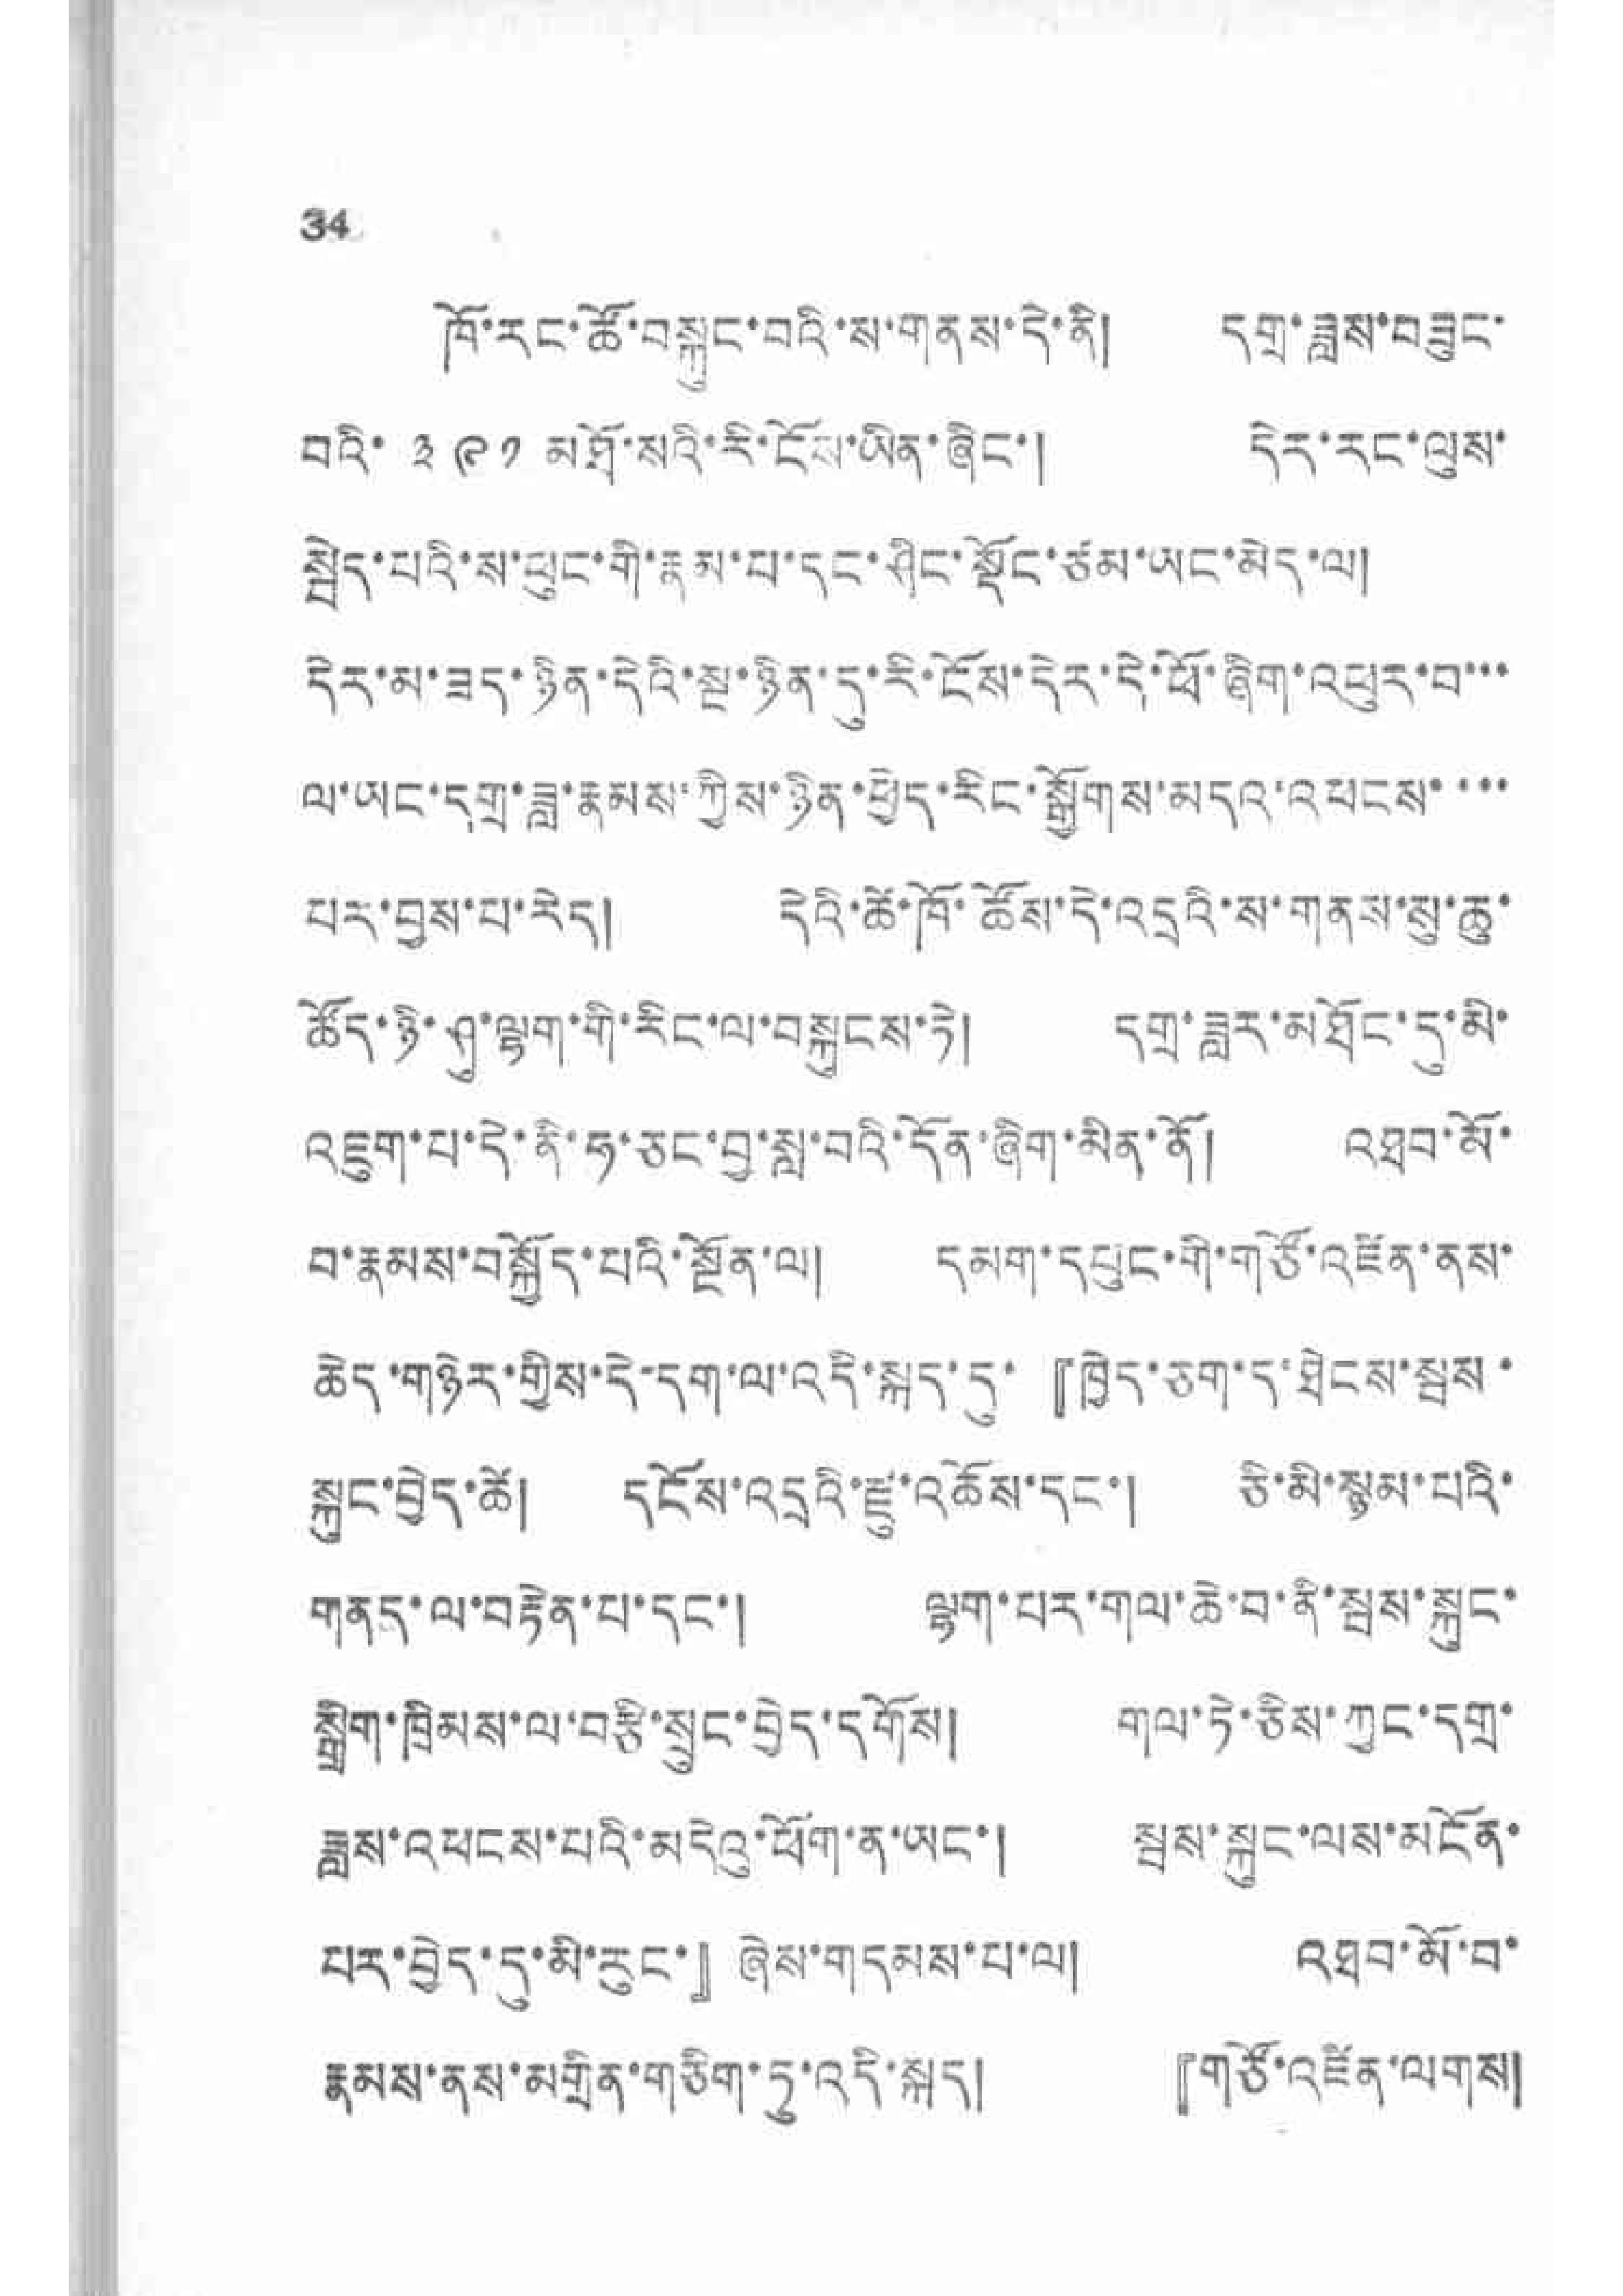34
ཁོ་རང་ཚོ་བསྐུང་བའི་ས་གནས་དེ་ནི། དགྲ་ཟླས་བཟུང་
བའི་ ༣༩༡ མཐོ་སའི་རི་ངོས་ཡིན་ཞིང་། དེར་རང་ལུས་
སྦེད་པའི་ས་ཕུང་གི་རྣམ་པ་དང་ཤིང་སྡོང་ཙམ་ཡང་མེད་ལ།
དེར་མ་ཟད་ཉིན་དེའི་སྔ་ཉིན་དུ་རི་ངོས་དེར་དེ་ཕོ་ཞིག་འཕུར་བ་་་
ལ་ཡང་དགྲ་ཟླ་རྣམས་ཀྱིས་ཉིན་ཕྱེད་རིང་སྒྱོགས་མདའ་འཕངས་་་་
པར་བྱས་པ་རེད། དེའི་ཚེ་ཁོ་ཚོས་དེ་འདྲའི་ས་གནས་སུ་ཆུ་
ཚོད་ཉི་ཤུ་ལྷག་གི་རིང་ལ་བསྐུངས་ཏེ། དགྲ་ཟླར་མཐོང་དུ་མི་
འཇུག་པ་དེ་ནི་ཧ་ཅང་བྱ་སླ་བའི་དོན་ཞིག་མིན་ནོ། འཐབ་མོ་
བ་རྣམས་བསྐྱོད་པའི་སྔོན་ལ། དམག་དཔུང་གོ་གཙོ་འཛིན་ནས་
ཆེད་གཉེར་གྱིས་དེ་དག་ལ་འདི་སྐད་དུ་『ཁྱེད་ཅག་ད་ཐེངས་སྦས་
སྐུང་བྱེད་ཚེ། དངོས་འདྲའི་རྫུ་འཆོས་དང་། ཅི་མི་སྙམ་པའི་
གནད་ལ་བརྟེན་པ་དང་། ལྷག་པར་གལ་ཆེ་བ་ནི་སྦས་སྐུང་
སྒྲིག་ཁྲིམས་ལ་བརྩི་སྲུང་བྱེད་དགོས། གལ་ཏེ་ཅིས་ཀྱང་དགྲ་
ཟླས་འཕངས་པའི་མདེའུ་ཕོག་ན་ཡང་། སྦས་སྐུང་ལས་མངོན་
པར་བྱེད་དུ་མི་རུང་』ཞེས་གདམས་པ་ལ། འཐབ་མོ་བ་
རྣམས་ནས་མགྲིན་གཅིག་ཏུ་འདི་སྐད། 『གཙོ་འཛིན་ལགས།
